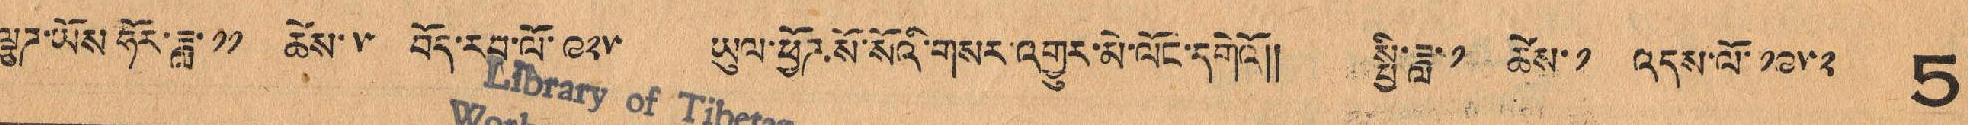ལྕཊ་ཡོས་ཧོར་ཟླ་ ༡༡ ཚེས་ ༥ བོད་རབ་པོ་ ༩༢༥ ཡུལ་ཕྱོཊ་སོ་སོའི་གསར་འགྱུར་མི་ལོང་དགེའོ།། སྤྱི་ཟླ་ ༡ ཚེས་ ༡ འདས་ལོ་ ༡༩༥༢ 5
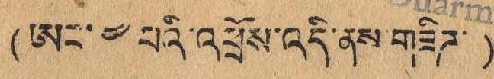(ཨང་ ༤ པའི་འཕྲོས་འདི་ནས་གཟིཊ་)
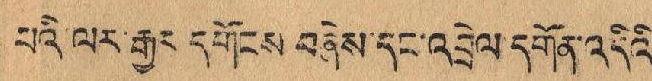པའི་པར་རྒྱར དགོངས བཞེས་དང་འབྲེལ དགོན་འདིའི་
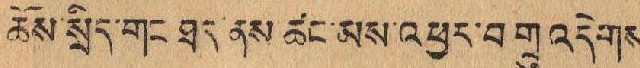ཆོས་སྲིད་གང ཐད་ནས་ཚང་མས་འཕྱར་བགྲུ འདེགས་
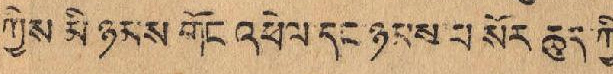ཀྱེས མི ཉམས་གོང འཕེལ དང་ཉམས་པ སོར་ཆུད་ཀྱི་
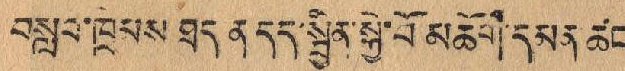བསླབ་ཁྲིམས ཐད ན དད་སྦྱིན་སྐྱེ་བོ མཆོག་དམན་ཚང་
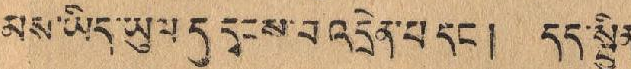མས་ཡིད་ཡུལ དུ་དྭངས་བ འདྲེན་པ་དང་། དད་སྦྱིན་
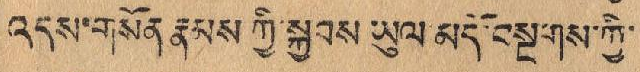འདས་གསོན་རྣམས ཀྱི་སྐྱབས་ཡུལ་མདོ་བསྔགས་ཀྱི་
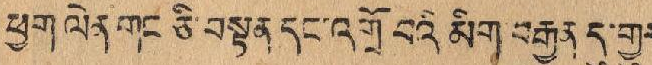ཕྱག ལེན གང་ཅི་བསྟན དང་འགྲོ བའི་མིག་བརྒྱན དུ་གྱུར་
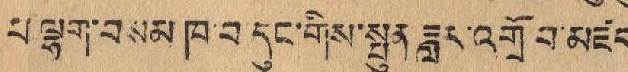པ་ལྷག་བསམ་ཁ་བ་དུང་གིས་སྤུན ཟླར་འགྲོ བ་མཛད་
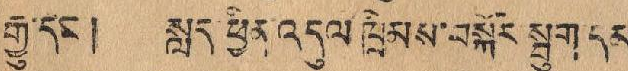རྒྱུ་དང་། སླད་ཕྱིན འདུལ་ཁྲིམས་བསྐོར སྦུག་དམ་
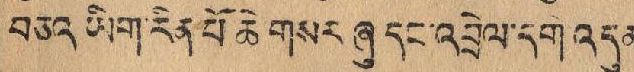བཅའ ཡིག་རིན་པོ ཆེ་གསར་ཞུ དང་འབྲེལ་དགེ འདུན་
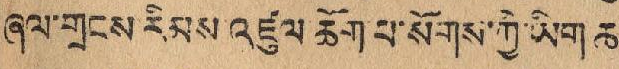ཞལ་གྲངས རིམས་འཛུལ་ཆོག་པ་སོགས་ཀྱི་ཡིག ཆ་
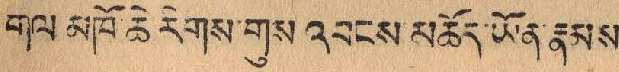གལ མཁོ་ཆེ རིགས་གུས་འབངས་མཆོད་ཡོན་རྣམས་
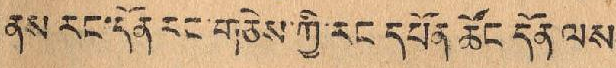ནས རང་དོན་རང་གཅེས་གྱི་རང དཔོན་ཚོང དོན་ལས་
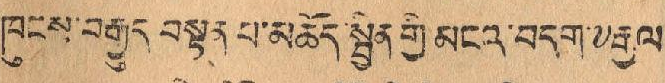ཁུངས་བརྒྱུད བསྟན པ་མཆོད་སྦྱིན་གྱི མངའ་བདག་༸རྒྱལ་
